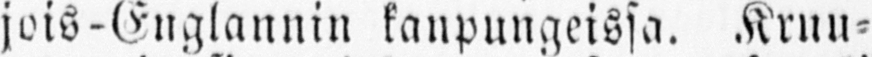jois-Englannin kanpungeissa. Kruu-
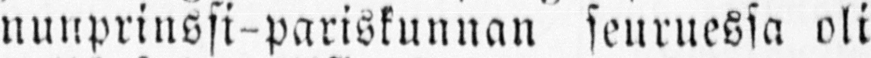nunprinssi-pariskunnan seuruessa oli
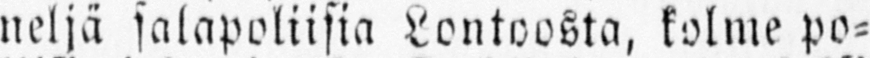neljä salapoliisia Lontoosta, kolme po-
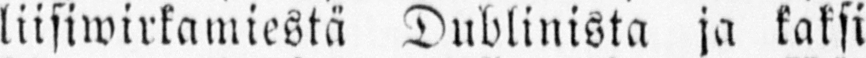liisiwirkamiestä Dublinista ja kaksi
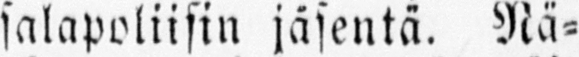Liwerpoolin salapoliisin jäsentä. Nä-
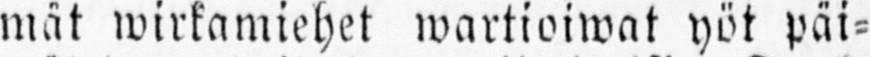mät wirkamiehet wartioiwat yöt päi-
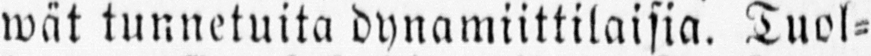wät tunnetuita dynamiittilaisia. Tuol-
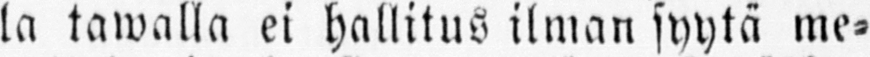la tawalla ei hallitus ilman syytä me-
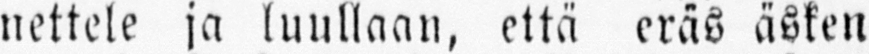nettele ja luullaan, että eräs äsken
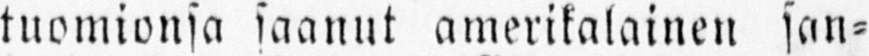tuomionsa saanut amerikalainen san-
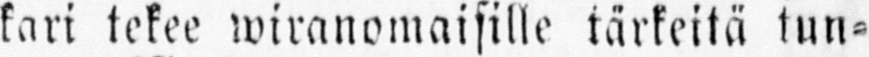kari tekee wiranomaisille tärkeitä tun-
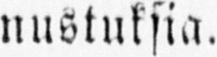nustuksia.
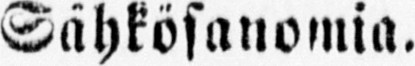Sähkösanomia.
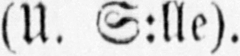(U. S:lle).
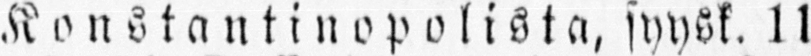K o nstanti nopo list a, syysk. 11
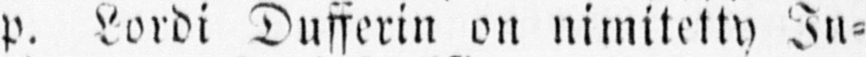p. Lordi Dufferin on nimitetty In-
